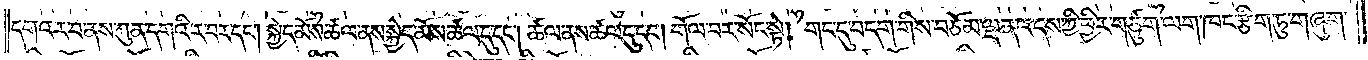དགའ་ར་བ་ནས་ཀུན་དགའི་ར་བར་དང༌། སྐྱེད་མོས་ཚལ་ནས་སྐྱེད་མོས་ཚལ་དུ་དང༌། ཚལ་ནས་ཚལ་དུ་དང༌། གོལ་བར་སོང་སྟེ། གང་དུ་བདག་གིས་བཅོམ་ལྡན་འདས་ཀྱི་ཕྱིར་གཙུག་ལག་ཁང་རྩིག་ཏུ་གཞུག་
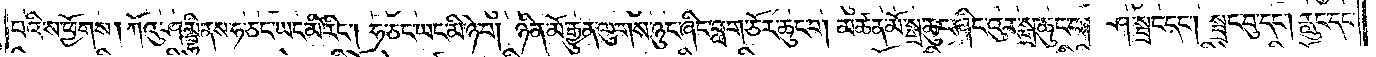བའི་ས་ཕྱོགས། ཀོའུ་ཤམྦྷི་ནས་ཧ་ཅང་ཡང་མི་རིང༌། ཧ་ཅང་ཡང་མི་ཉེ་བ། ཉིན་མོ་རྒྱུན་ལུགས་ཉུང་ཞིང་བླག་ཅོར་ཆུང་བ། མཚན་མོ་སྒྲ་ཆུང་ཞིང་འུར་སྒྲ་ཆུང་བ། ཤ་སྦྲང་དང༌། སྦྲང་བུ་དང༌། རླུང་དང་
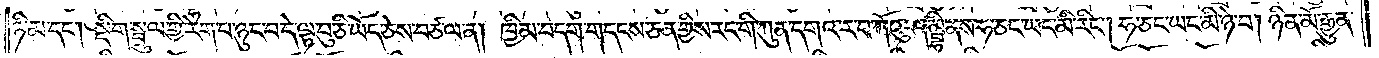ཉི་མ་དང༌། སྡིག་སྦྲུལ་གྱི་རེག་པ་ཉུང་བ་དེ་ལྟ་བུ་ཅི་ཡོད་ཅེས་བཙལ་ན། ཁྱིམ་བདག་གདངས་ཅན་གྱིས་རང་གི་ཀུན་དགའ་ར་བ་ཀོའུ་ཤམྦྷི་ནས་ཧ་ཅང་ཡང་མི་རིང༌། ཧ་ཅང་ཡང་མི་ཉེ་བ། ཉིན་མོ་རྒྱུན་
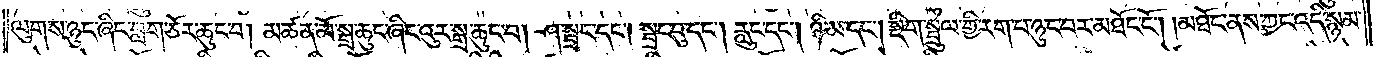ལུགས་ཉུང་ཞིང་བླག་ཅོར་ཆུང་བ། མཚན་མོ་སྒྲ་ཆུང་ཞིང་འུར་སྒྲ་ཆུང་བ། ཤ་སྦྲང་དང༌། སྦྲང་བུ་དང༌། རླུང་དང༌། ཉི་མ་དང༌། སྡིག་སྦྲུལ་གྱི་རག་པ་ཉུང་བར་མཐོང་ངོ༌། །མཐོང་ནས་ཀྱང་འདི་སྙམ་
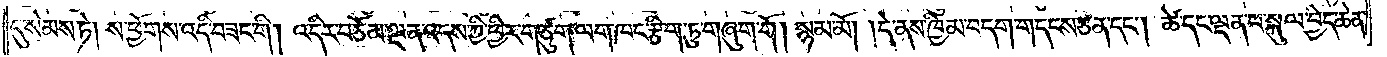དུ་སེམས་ཏེ། ས་ཕྱོགས་འདི་བཟང་གི། འདིར་བཅོམ་ལྡན་འདས་ཀྱི་ཕྱིར་གཙུག་ལག་ཁང་རྩིག་ཏུ་གཞུག་གོ །སྙམ་མོ། །དེ་ནས་ཁྱིམ་བདག་གདངས་ཅན་དང༌། ཚེ་དང་ལྡན་པ་སྐུལ་བྱེད་ཆེན་
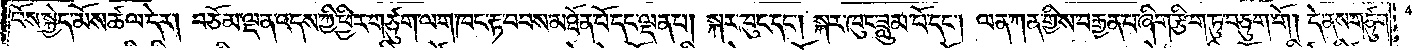པོས་སྐྱེད་མོས་ཚལ་དེར། བཅོམ་ལྡན་འདས་ཀྱི་ཕྱིར་གཙུག་ལག་ཁང་རྟ་བབས་མཐོན་པོ་དང་ལྡན་པ། སྐར་ཁུང་དང༌། སྐར་ཁུང་ཟླུམ་པོ་དང༌། ལན་ཀན་གྱིས་བརྒྱན་པ་ཞིག་རྩིག་ཏུ་བཅུག་གོ །དེ་ནས་གཙུག་
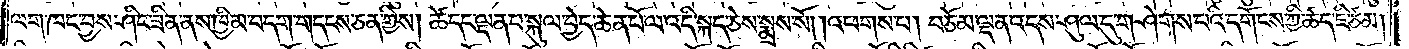ལག་ཁང་བྱས་ཤིང་ཟིན་ནས་ཁྱིམ་བདག་གདངས་ཅན་གྱིས། ཚེ་དང་ལྡན་པ་སྐུལ་བྱེད་ཆེན་པོ་ལ་འདི་སྐད་ཅེས་སྨྲས་སོ། །འཕགས་པ། བཅོམ་ལྡན་འདས་ཤུལ་དུ་གཤེགས་པའི་དགོངས་ཀྱི་ཚད་ཇི་ཙམ།
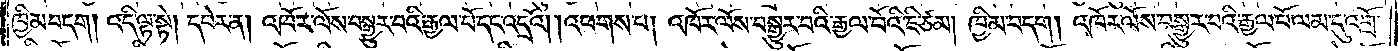ཁྱིམ་བདག །འདི་ལྟ་སྟེ། དཔེར་ན། འཁོར་ལོས་བསྒྱུར་བའི་རྒྱལ་པོ་དང་འདྲའོ། །འཕགས་པ། འཁོར་ལོས་བསྒྱུར་བའི་རྒྱལ་པོའི་ཇི་ཙམ། ཁྱིམ་བདག །འཁོར་ལོས་བསྒྱུར་བའི་རྒྱལ་པོ་ལམ་དུ་འགྲོ་
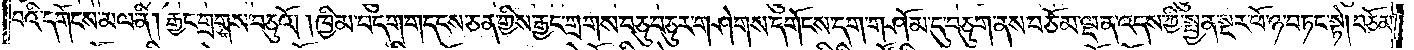བའི་དགོངས་མལ་ནི། རྒྱང་གྲགས་བཅུའོ། །ཁྱིམ་བདག་གདངས་ཅན་གྱིས་རྒྱང་གྲགས་བཅུ་བཅུར་གཤེགས་དགོངས་དག་གཤོམ་དུ་བཅུག་ནས་བཅོམ་ལྡན་འདས་ཀྱི་སྤྱན་སྔར་ཕོ་ཉ་བཏང་སྟེ། བཅོམ་
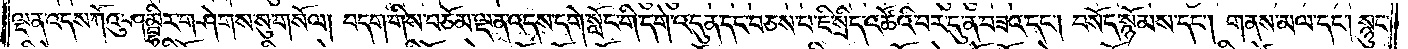ལྡན་འདས་ཀོའུ་ཤམྦྷིར་གཤེགས་སུ་གསོལ། བདག་གིས་བཅོམ་ལྡན་འདས་དགེ་སློང་གི་དགེ་འདུན་དང་བཅས་པ་ཇི་སྲིད་འཚོའི་བར་དུ་ན་བཟའ་དང༌། བསོད་སྙོམས་དང༌། གནས་མལ་དང༌། སྙུང་
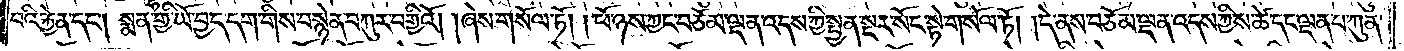བའི་རྐྱེན་དང༌། སྨན་གྱི་ཡོ་བྱད་དག་གིས་བསྙེན་བཀུར་བགྱིའོ། །ཞེས་གསོལ་ཏོ། །ཕོ་ཉས་ཀྱང་བཅོམ་ལྡན་འདས་ཀྱི་སྤྱན་སྔར་སོང་སྟེ་གསོལ་ཏོ། །དེ་ནས་བཅོམ་ལྡན་འདས་ཀྱིས་ཚེ་དང་ལྡན་པ་ཀུན་
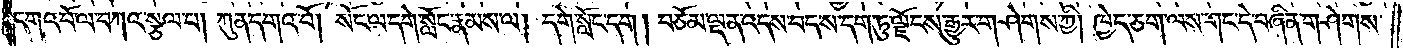དགའ་བོ་ལ་བཀའ་སྩལ་པ། ཀུན་དགའ་བོ། སོང་ལ་དགེ་སློང་རྣམས་ལ། དགེ་སློང་དག །བཅོམ་ལྡན་འདས་བད་ས་དག་ཏུ་ལྗོངས་རྒྱུར་གཤེགས་ཀྱི། ཁྱེད་ཅག་ལས་གང་དེ་བཞིན་གཤེགས་
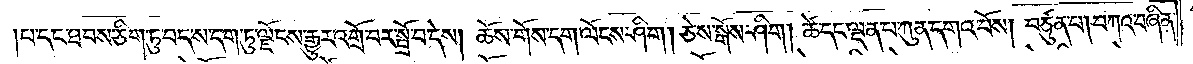།པ་དང་ཐབས་ཅིག་ཏུ་བད་ས་དག་ཏུ་ལྗོངས་རྒྱུར་འགྲོ་བར་སྤྲོ་བ་དེས། ཆོས་གོས་དག་ལོངས་ཤིག །ཅེས་སྒོས་ཤིག །ཚེ་དང་ལྡན་པ་ཀུན་དགའ་བོས། བཙུན་པ། བཀའ་བཞིན་
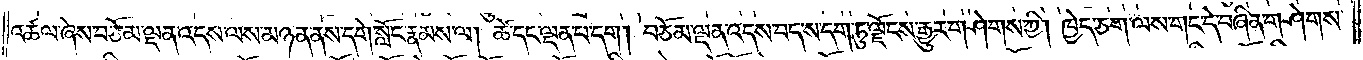འཚལ་ཞེས་བཅོམ་ལྡན་འདས་ལས་མཉན་ནས་དགེ་སློང་རྣམས་ལ། ཚེ་དང་ལྡན་པ་དག །བཅོམ་ལྡན་འདས་བད་ས་དག་ཏུ་ལྗོངས་རྒྱུར་གཤེགས་ཀྱི། ཁྱེད་ཅག་ལས་གང་དེ་བཞིན་གཤེགས་
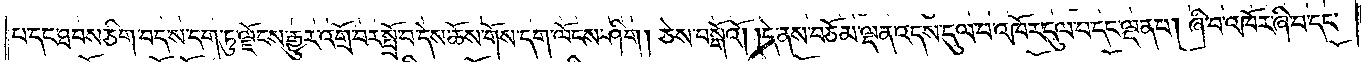པ་དང་ཐབས་ཅིག་བད་ས་དག་ཏུ་ལྗོངས་རྒྱུར་འགྲོ་བར་སྤྲོ་བ་དེས་ཆོས་གོས་དག་ལོངས་ཤིག །ཅེས་བསྒོའོ། །དེ་ནས་བཅོམ་ལྡན་འདས་དུལ་བ་འཁོར་དུལ་བ་དང་ལྡན་པ། ཞི་བ་འཁོར་ཞི་བ་དང་
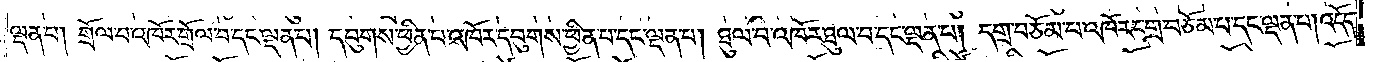ལྡན་པ། གྲོལ་བ་འཁོར་གྲོལ་བ་དང་ལྡན་པ། དབུགས་ཕྱིན་པ་འཁོར་དབུགས་ཕྱིན་པ་དང་ལྡན་པ། ཐུལ་བ་འཁོར་ཐུལ་བ་དང་ལྡན་པ། དགྲ་བཅོམ་པ་འཁོར་དགྲ་བཅོམ་པ་དང་ལྡན་པ། འདོད་
